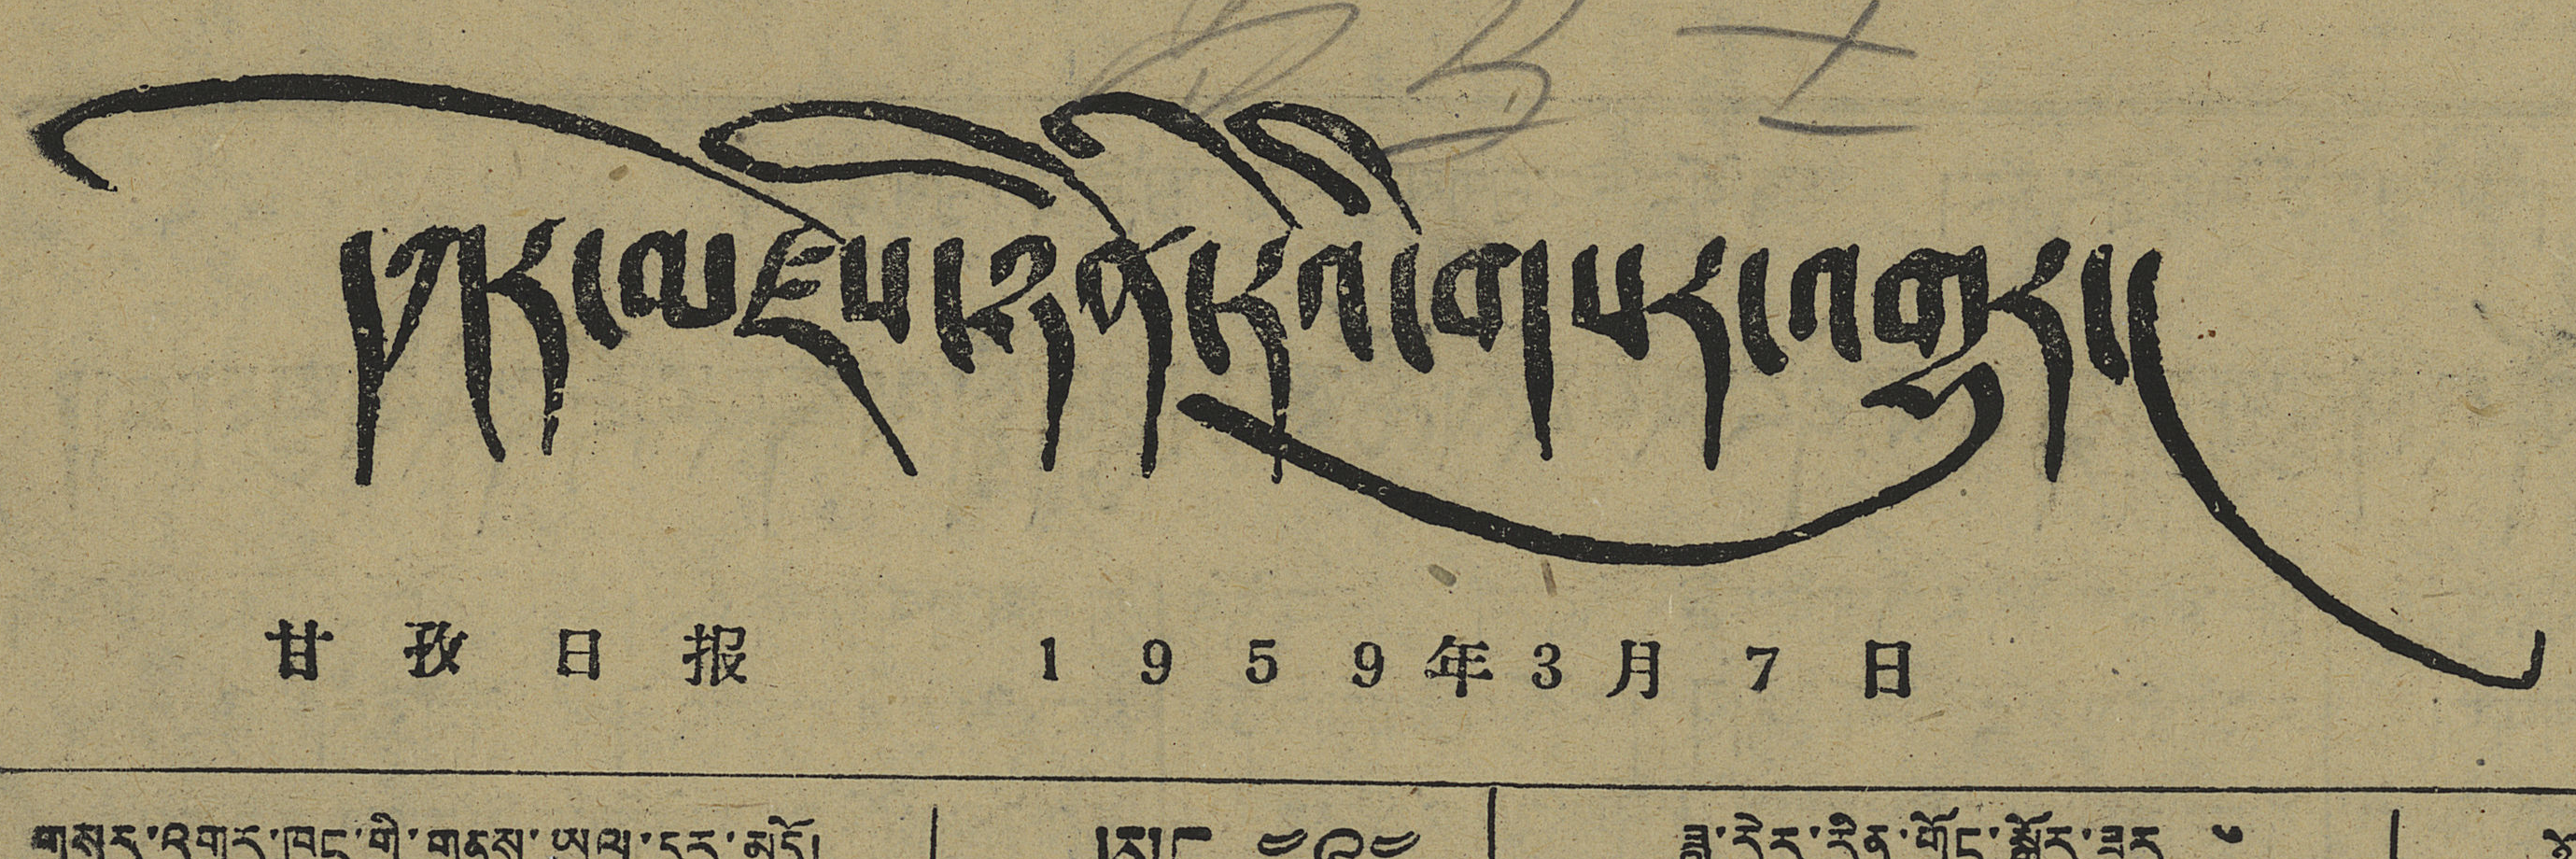དཀར་མཛེས་ཉིན་རེའི་གསར་འགྱུར།
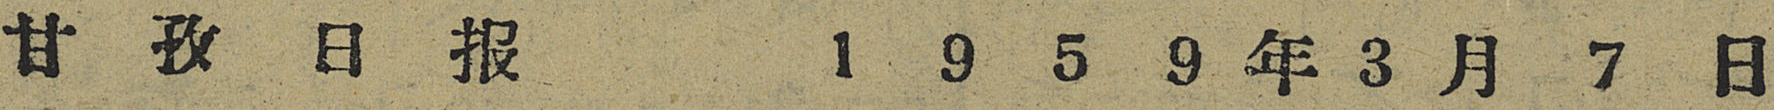甘 孜 日 报 1 9 5 9 年 3 月 7 日
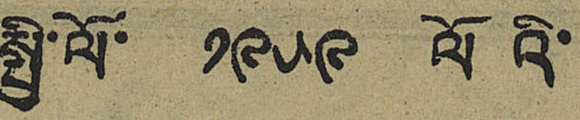སྤྱི་ལོ་ ༡༩༥༩ ལོའི་
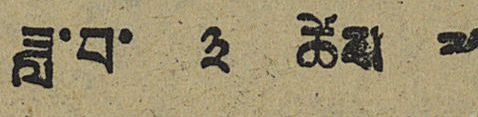ཟླ་བ་ ༣ ཚེས ༧
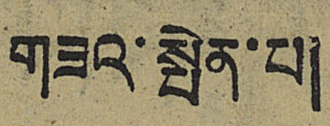གཟའ་སྤེན་པ།
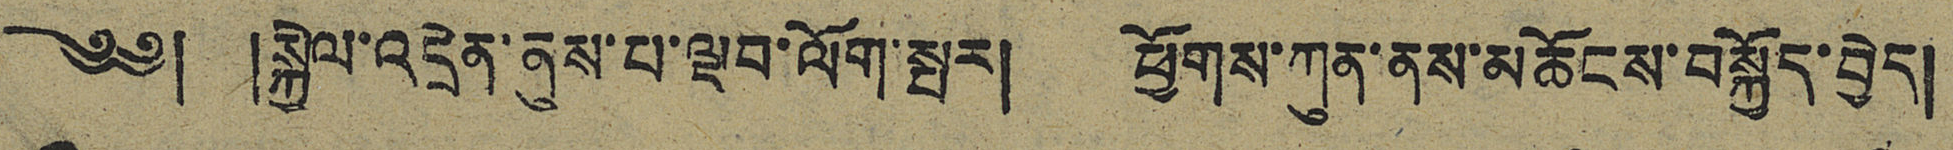༄༅། །སྐྱེལ་འདྲེན་ནུས་པ་ལྡབ་ལོག་སྤར། ཕྱོགས་ཀུན་ནས་མཆོངས་བསྐྱོད་བྱེད།
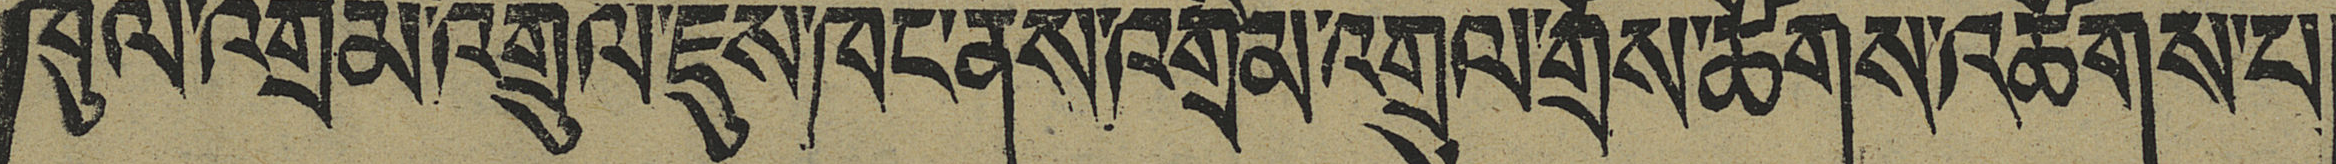ཁུལ་འགྲིམ་འགྲུལ་ཇུས་ཁང་ནས་འགྲིམ་འགྲུལ་གྲོས་ཚོགས་འཚོགས་པ།
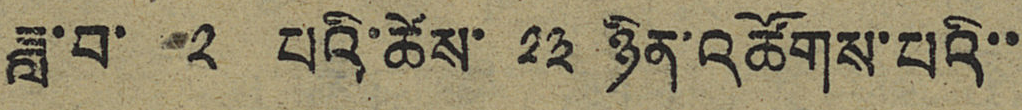ཟླ་བ་ ༢ པའི་ཚེས་ ༢༣ ཉིན་འཚོགས་པའི་་
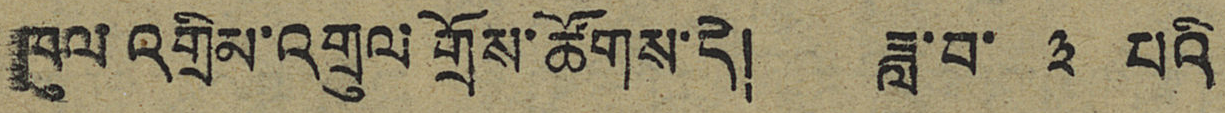ཁུལ་འགྲིམ་འགྲུལ་གྲོས་ཚོགས་དེ། ཟླ་བ་ ༣ པའི
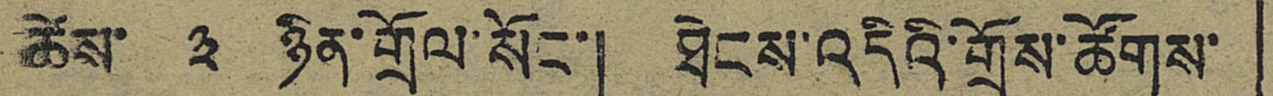ཚེས་ ༣ ཉིན་གྲོལ་སོང་། ཐེངས་འདིའི་གྲོས་ཚོགས་
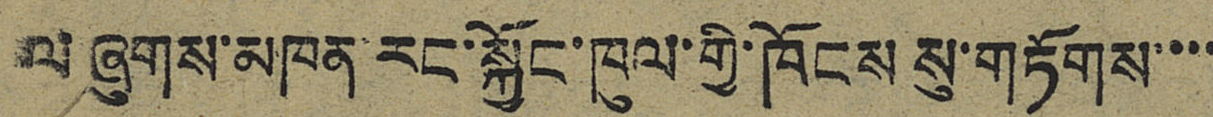ལ ཞུགས་མཁན་རང་སྐྱོང་ཁུལ་གྱི་ཁོངས་སུ་གཏོགས་་་་
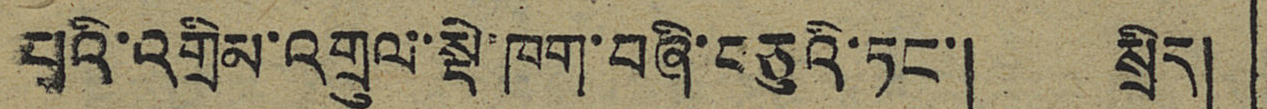པའི་འགྲིམ་འགྲུལ་སྡེ་ཁག་བཞི་བཅུའི་ཏང་། སྲིད།
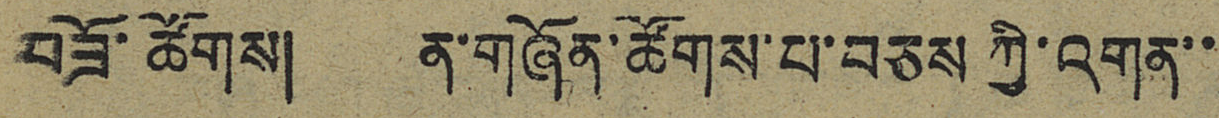བཟོ་ཚོགས། ན་གཞོན་ཚོགས་པ་བཅས་ཀྱི་འགན་་
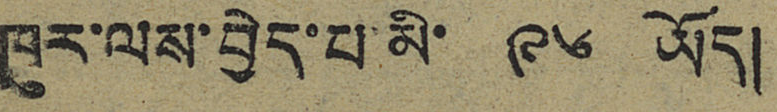ཁུར་ལས་བྱེད་པ་མི་ ༩༦ ཡོད།
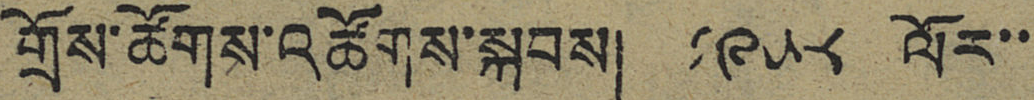གྲོས་ཚོགས་འཚོགས་སྐབས། ༡༩༥༨ ལོར་་
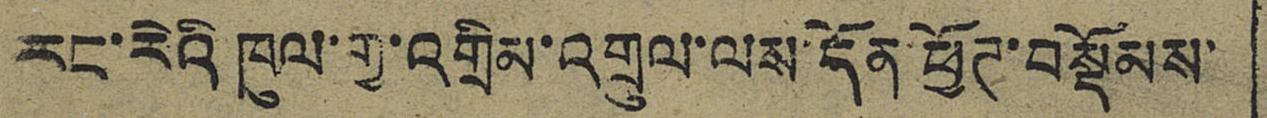རང་རེའི ཁུལ་གྱ་འགྲིམ་འགྲུལ་ལས་དོན་ཕྱོཊ་བསྡོམས་
